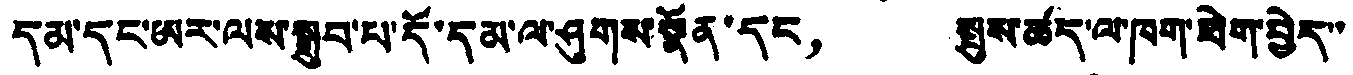དམ་དང་ཡར་ལས་སྒྲུབ་པ་དོ་དམ་ལ་ཤུགས་སྣོན་དང， སྤུས་ཚད་ལ་ཁག་ཐེག་བྱེད་་
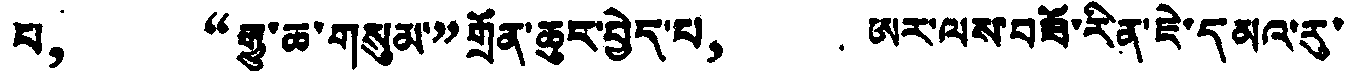པ， “རྒྱུ་ཆ་གསུམ་”གྲོན་ཆུར་བྱེད་པ， ཨར་ལས་བཟོ་རིན་ཇེ་དམའ་རུ་
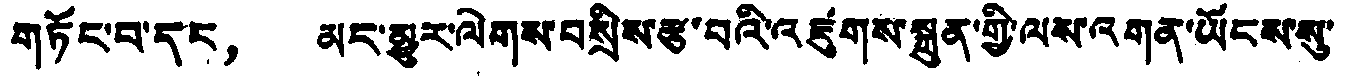གཏོང་བ་དང， མང་མྱུར་ལེགས་བསྲིས་རྩ་བའི་འཛུགས་སྐྲུན་གྱི་ལས་འགན་ཡོངས་སུ་
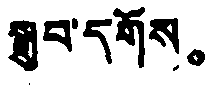སྒྲུབ་དགོས。
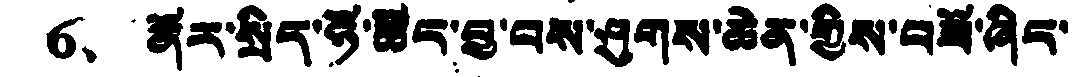6、 ནོར་སྲིད་ཉོ་ཚོང་བྱ་བས་ཤུགས་ཆེན་གྱིས་བཟོ་ཞིང་
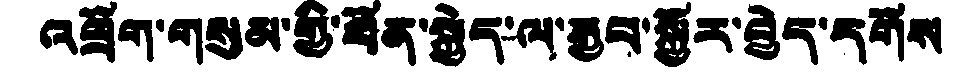འབྲོག་གསུམ་གྱི་ཐོན་སྐྱེད་ལ་རྒྱབ་སྐྱོར་བྱེད་དགོས
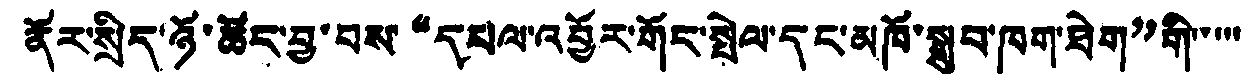ནོར་སྲིད་ཉོ་ཚོང་བྱ་བས“དཔལ་འབྱོར་གོང་སྤེལ་དང་མཁོ་སྒྲུབ་ཁག་ཐེག”གི་་་་་
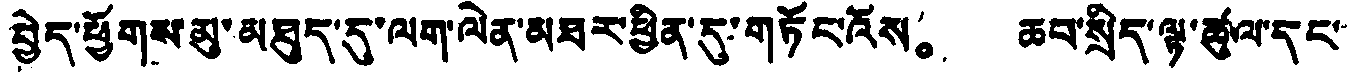བྱེད་ཕྱོགས་མུ་མཐུད་དུ་ལག་ལེན་མཐར་ཕྱིན་དུ་གཏོང་འོས。 ཆབ་སྲིད་ལྟ་ཚུལ་དང་
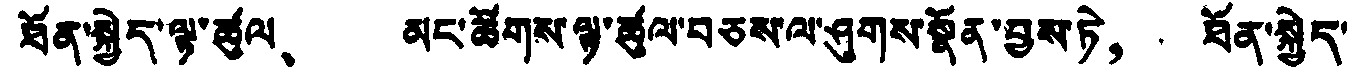ཐོན་སྐྱེད་ལྟ་ཚུལ、 མང་ཚོགས་ལྟ་ཚུལ་བཅས་ལ་ཤུགས་སྣོན་བྱས་ཏེ， ཐོན་སྐྱེད་
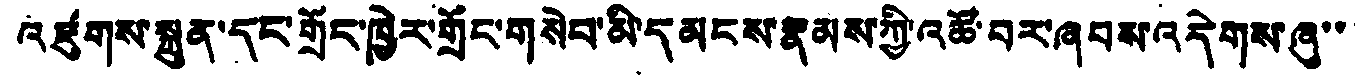འཛུགས་སྐྲུན་དང་གྲོང་ཁྱེར་གྲོང་གསེབ་མི་དམངས་རྣམས་ཀྱི་འཚོ་བར་ཞབས་འདེགས་ཞུ་་་
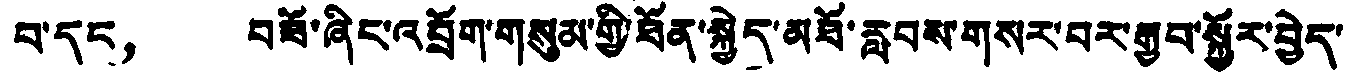བ་དང， བཟོ་ཞིང་འབྲོག་གསུམ་གྱི་ཐོན་སྐྱེད་མཐོ་རླབས་གསར་བར་རྒྱབ་སྐྱོར་བྱེད་
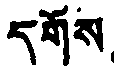དགོས。
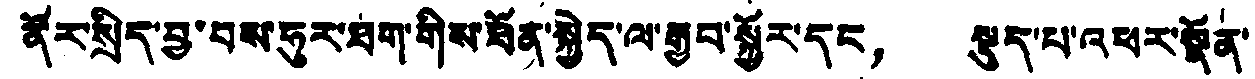ནོར་སྲིད་བྱ་བས་ཧུར་ཐག་གིས་ཐོན་སྐྱེད་ལ་རྒྱབ་སྐྱོར་དང， སྡུད་པ་འཕར་སྣོན་
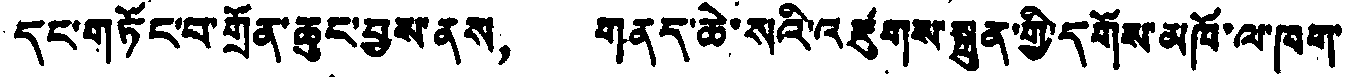དང་གཏོང་བ་གྲོན་ཆུང་བྱས་ནས， གནད་ཆེ་སའི་འཛུགས་སྐྲུན་གྱི་དགོས་མཁོ་ལ་ཁག་
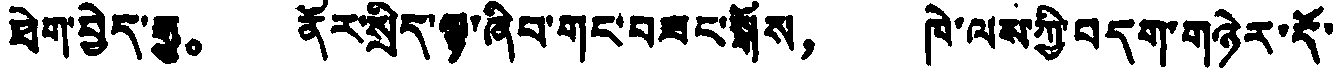ཐེག་བྱེད་རྒྱུ。 ནོར་སྲིད་ལྟ་ཞིབ་གང་བཟང་སྒོས， ཁེ་ལས་ཀྱི་བདག་གཉེར་དོ་
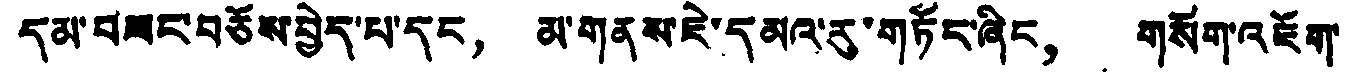དམ་བཟང་བཅོས་བྱེད་པ་དང， མ་གནས་ཇེ་དམའ་རུ་གཏོང་ཞིང， གསོག་འཇོག་
